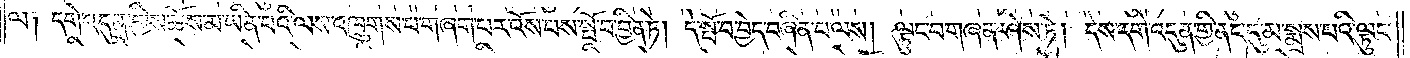ལ༑ དགེ་འདུན་གྱིས་ཆོས་མ་ཡིན་པའི་ལས་འཁྲུགས་པ་གཞག་པར་འོས་པས་སྤོ་བ་བྱིན་ཏེ། དེ་སྤོ་བ་བྱེད་བཞིན་པ་ལས། ལྟུང་བ་གཞན་ཤེས་ཏེ། དེས་དགེ་འདུན་གྱི་ནང་དུ་མ་སྨྲས་པའི་ལྟུང་
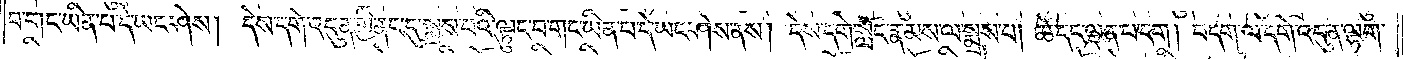བ་གང་ཡིན་པ་དེ་ཡང་ཤེས། དེས་དགེ་འདུན་གྱི་ནང་དུ་སྨྲས་པའི་ལྟུང་བ་གང་ཡིན་པ་དེ་ཡང་ཤེས་ནས། དེས་དགེ་སློང་རྣམས་ལ་སྨྲས་པ། ཚེ་དང་ལྡན་པ་དག། བདག་ལ་དགེ་འདུན་ལྷག་
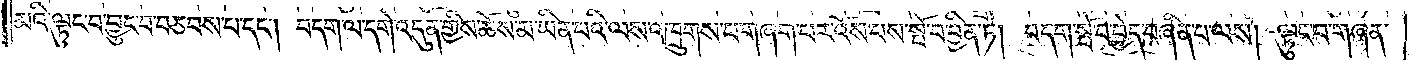མའི་ལྟུང་བ་བྱུང་བ་བཅབས་པ་དང༌། བདག་ལ་དགེ་འདུན་གྱིས་ཆོས་མ་ཡིན་པའི་ལས་འཁྲུགས་པ་གཞག་པར་འོས་པས་སྤོ་བ་བྱིན་ཏེ། བདག་སྤོ་བ་བྱེད་བཞིན་པ་ལས། ལྟུང་བ་གཞན་
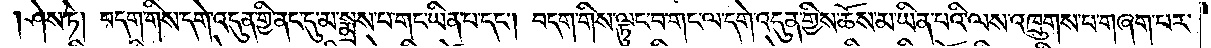ཤེས་ཏེ། བདག་གིས་དགེ་འདུན་གྱི་ནང་དུ་མ་སྨྲས་པ་གང་ཡིན་པ་དང༌། བདག་གིས་ལྟུང་བ་གང་ལ་དགེ་འདུན་གྱིས་ཆོས་མ་ཡིན་པའི་ལས་འཁྲུགས་པ་གཞག་པར་
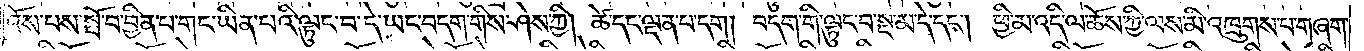འོས་པས་སྤོ་བ་བྱིན་པ་གང་ཡིན་པའི་ལྟུང་བ་དེ་ཡང་བདག་གིས་ཤེས་ཀྱི། ཚེ་དང་ལྡན་པ་དག། བདག་གི་ལྟུང་བ་སྔ་མ་དེ་དང༌། ཕྱི་མ་འདི་ལ་ཆོས་ཀྱི་ལས་མི་འཁྲུགས་པ་གཞག་
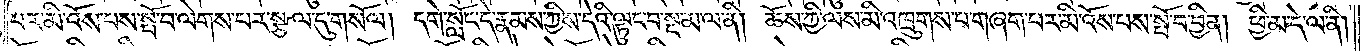པར་མི་འོས་པས་སྤོ་བ་ལེགས་པར་སྩལ་དུ་གསོལ། དགེ་སློང་དེ་རྣམས་ཀྱིས་དེའི་ལྟུང་བ་སྔ་མ་ལ་ནི། ཆོས་ཀྱི་ལས་མི་འཁྲུགས་པ་གཞག་པར་མི་འོས་པས་སྤོ་བ་བྱིན། ཕྱི་མ་དེ་ལ་ནི།
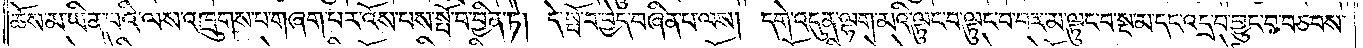ཆོས་མ་ཡིན་པའི་ལས་འཁྲུགས་པ་གཞག་པར་འོས་པས་སྤོ་བ་བྱིན་ཏེ། དེ་སྤོ་བ་བྱེད་བཞིན་པ་ལས། དགེ་འདུན་ལྷག་མའི་ལྟུང་བ་ལྟུང་བ་བར་མ་ལྟུང་བ་སྔ་མ་དང་འདྲ་བ་བྱུང་བ་བཅབས་
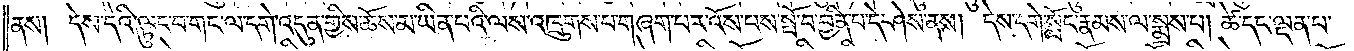ནས། དེས་དེའི་ལྟུང་བ་གང་ལ་དགེ་འདུན་གྱིས་ཆོས་མ་ཡིན་པའི་ལས་འཁྲུགས་པ་གཞག་པར་འོས་པས་སྤོ་བ་བྱིན་པ་དེ་ཤེས་ནས། དེས་དགེ་སློང་རྣམས་ལ་སྨྲས་པ། ཚེ་དང་ལྡན་པ་
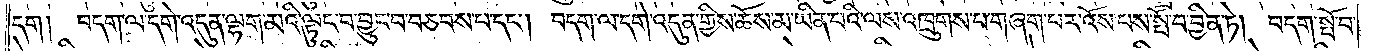དག། བདག་ལ་དགེ་འདུན་ལྷག་མའི་ལྟུང་བ་བྱུང་བ་བཅབས་པ་དང༌། བདག་ལ་དགེ་འདུན་གྱིས་ཆོས་མ་ཡིན་པའི་ལས་འཁྲུགས་པ་གཞག་པར་འོས་པས་སྤོ་བ་བྱིན་ཏེ། བདག་སྤོ་བ་
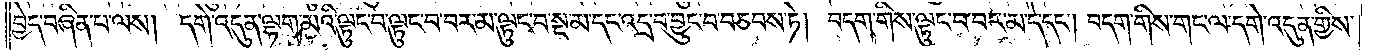བྱེད་བཞིན་པ་ལས། དགེ་འདུན་ལྷག་མའི་ལྟུང་བ་ལྟུང་བ་བར་མ་ལྟུང་བ་སྔ་མ་དང་འདྲ་བ་བྱུང་བ་བཅབས་ཏེ། བདག་གིས་ལྟུང་བ་བར་མ་དེ་དང༌། བདག་གིས་གང་ལ་དགེ་འདུན་གྱིས་
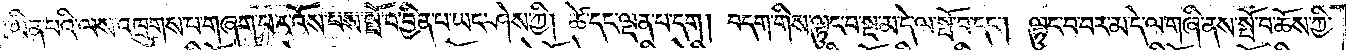ཡིན་པའི་ལས་འཁྲུགས་པ་གཞག་པར་འོས་པས་སྤོ་བ་བྱིན་པ་ཡང་ཤེས་ཀྱི། ཚེ་དང་ལྡན་པ་དག། བདག་གིས་ལྟུང་བ་སྔ་མ་དེ་ལ་སྤོ་བ་དང༌། ལྟུང་བ་བར་མ་དེ་ལ་གཞི་ནས་སྤོ་བ་ཆོས་ཀྱི་
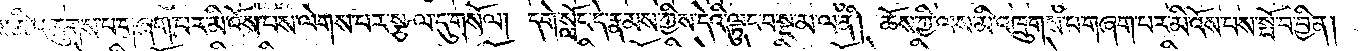ལས་མི་འཁྲུགས་པ་གཞག་པར་མི་འོས་པས་ལེགས་པར་སྩལ་དུ་གསོལ། དགེ་སློང་དེ་རྣམས་ཀྱིས་དེའི་ལྟུང་བ་སྔ་མ་ལ་ནི། ཆོས་ཀྱི་ལས་མི་འཁྲུགས་པ་གཞག་པར་མི་འོས་པས་སྤོ་བ་བྱིན།
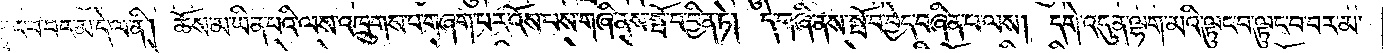ལྟུང་བ་བར་མ་དེ་ལ་ནི། ཆོས་མ་ཡིན་པའི་ལས་འཁྲུགས་པ་གཞག་པར་འོས་པས་གཞི་ནས་སྤོ་བ་བྱིན་ཏེ། དེ་གཞི་ནས་སྤོ་བ་བྱེད་བཞིན་པ་ལས། དགེ་འདུན་ལྷག་མའི་ལྟུང་བ་ལྟུང་བ་བར་མ་
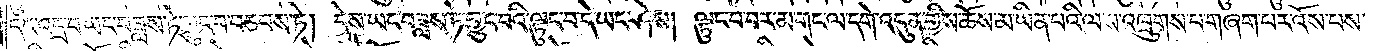དང་འདྲ་བ་ཡང་བཟླས་ཏེ་བྱུང་བ་བཅབས་ཏེ། དེས་ཡང་བཟླས་ཏེ་བྱུང་བའི་ལྟུང་བ་དེ་ཡང་ཤེས། ལྟུང་བ་བར་མ་གང་ལ་དགེ་འདུན་གྱིས་ཆོས་མ་ཡིན་པའི་ལས་འཁྲུགས་པ་གཞག་པར་འོས་པས་
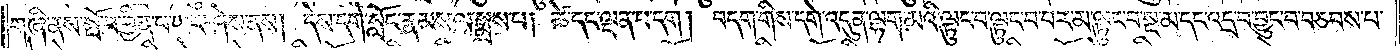གཞི་ནས་སྤོ་བ་བྱིན་པས་ཡང་ཤེས་ནས། དེས་དགེ་སློང་རྣམས་ལ་སྨྲས་པ། ཚེ་དང་ལྡན་པ་དག། བདག་གིས་དགེ་འདུན་ལྷག་མའི་ལྟུང་བ་ལྟུང་བ་བར་མ་ལྟུང་བ་སྔ་མ་དང་འདྲ་བ་བྱུང་བ་བཅབས་པ་
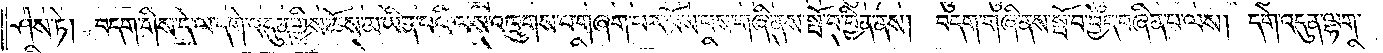ཤེས་ཏེ། བདག་གིས་དེ་ལ་དགེ་འདུན་གྱིས་ཆོས་མ་ཡིན་པའི་ལས་འཁྲུགས་པ་གཞག་པར་འོས་པས་གཞི་ནས་སྤོ་བ་བྱིན་ནས། བདག་གཞི་ནས་སྤོ་བ་བྱེད་བཞིན་པ་ལས། དགེ་འདུན་ལྷག་
